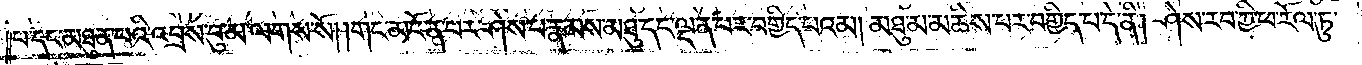པ་དང་མཐུན་པའི་འབྲས་བུ་མ་ལགས་སོ། །གང་མངོན་པར་ཤེས་པ་རྣམས་མཐུ་དང་ལྡན་པར་བགྱིད་པའམ། མཐུ་མ་མཆིས་པར་བགྱིད་པ་དེ་ནི། ཤེས་རབ་ཀྱི་ཕ་རོལ་ཏུ་
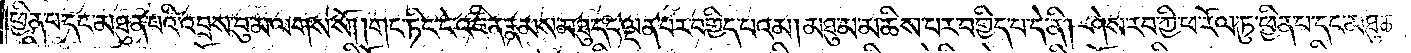ཕྱིན་པ་དང་མཐུན་པའི་འབྲས་བུ་མ་ལགས་སོ། །གང་ཏིང་ངེ་འཛིན་རྣམས་མཐུ་དང་ལྡན་པར་བགྱིད་པའམ། མཐུ་མ་མཆིས་པར་བགྱིད་པ་དེ་ནི། ཤེས་རབ་ཀྱི་ཕ་རོལ་ཏུ་ཕྱིན་པ་དང་མཐུན་
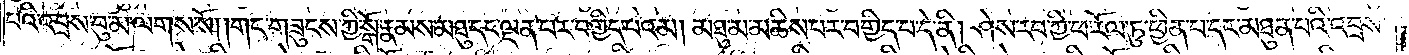པའི་འབྲས་བུ་མ་ལགས་སོ། །གང་གཟུངས་ཀྱི་སྒོ་རྣམས་མཐུ་དང་ལྡན་པར་བགྱིད་པའམ། མཐུ་མ་མཆིས་པར་བགྱིད་པ་དེ་ནི། ཤེས་རབ་ཀྱི་ཕ་རོལ་ཏུ་ཕྱིན་པ་དང་མཐུན་པའི་འབྲས་
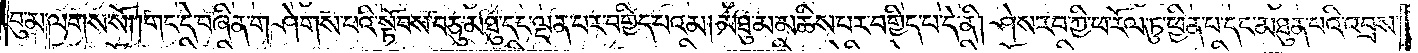བུ་མ་ལགས་སོ། །གང་དེ་བཞིན་གཤེགས་པའི་སྟོབས་བཅུ་མཐུ་དང་ལྡན་པར་བགྱིད་པའམ། མཐུ་མ་མཆིས་པར་བགྱིད་པ་དེ་ནི། ཤེས་རབ་ཀྱི་ཕ་རོལ་ཏུ་ཕྱིན་པ་དང་མཐུན་པའི་འབྲས་
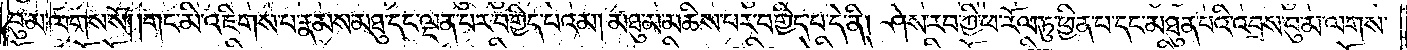བུ་མ་ལགས་སོ། །གང་མི་འཇིགས་པ་རྣམས་མཐུ་དང་ལྡན་པར་བགྱིད་པའམ། མཐུ་མ་མཆིས་པར་བགྱིད་པ་དེ་ནི། ཤེས་རབ་ཀྱི་ཕ་རོལ་ཏུ་ཕྱིན་པ་དང་མཐུན་པའི་འབྲས་བུ་མ་ལགས་
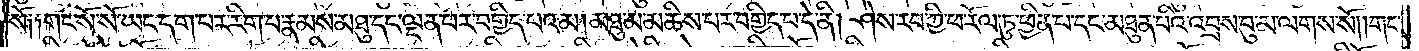སོ༑ ༑གང་སོ་སོ་ཡང་དག་པར་རིག་པ་རྣམས་མཐུ་དང་ལྡན་པར་བགྱིད་པའམ། མཐུ་མ་མཆིས་པར་བགྱིད་པ་དེ་ནི། ཤེས་རབ་ཀྱི་ཕ་རོལ་ཏུ་ཕྱིན་པ་དང་མཐུན་པའི་འབྲས་བུ་མ་ལགས་སོ། །གང་
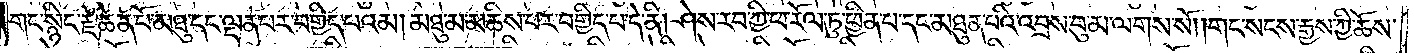གང་སྙིང་རྗེ་ཆེན་པོ་མཐུ་དང་ལྡན་པར་བགྱིད་པའམ། མཐུ་མ་མཆིས་པར་བགྱིད་པ་དེ་ནི། ཤེས་རབ་ཀྱི་ཕ་རོལ་ཏུ་ཕྱིན་པ་དང་མཐུན་པའི་འབྲས་བུ་མ་ལགས་སོ། །གང་སངས་རྒྱས་ཀྱི་ཆོས་
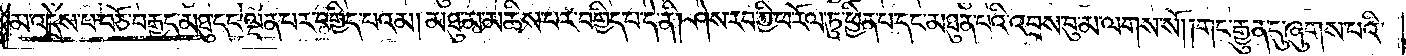མ་འདྲེས་པ་བཅོ་བརྒྱད་མཐུ་དང་ལྡན་པར་བགྱིད་པའམ། མཐུ་མ་མཆིས་པར་བགྱིད་པ་དེ་ནི། ཤེས་རབ་ཀྱི་ཕ་རོལ་ཏུ་ཕྱིན་པ་དང་མཐུན་པའི་འབྲས་བུ་མ་ལགས་སོ། །གང་རྒྱུན་དུ་ཞུགས་པའི་
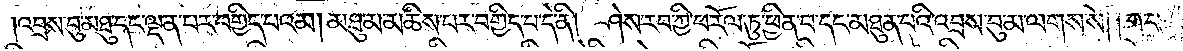འབྲས་བུ་མཐུ་དང་ལྡན་པར་བགྱིད་པའམ། མཐུ་མ་མཆིས་པར་བགྱིད་པ་དེ་ནི། ཤེས་རབ་ཀྱི་ཕ་རོལ་ཏུ་ཕྱིན་པ་དང་མཐུན་པའི་འབྲས་བུ་མ་ལགས་སོ། །གང་
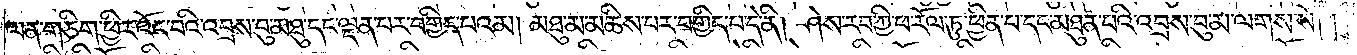ལན་གཅིག་ཕྱིར་འོང་བའི་འབྲས་བུ་མཐུ་དང་ལྡན་པར་བགྱིད་པའམ། མཐུ་མ་མཆིས་པར་བགྱིད་པ་དེ་ནི། ཤེས་རབ་ཀྱི་ཕ་རོལ་ཏུ་ཕྱིན་པ་དང་མཐུན་པའི་འབྲས་བུ་མ་ལགས་སོ། །
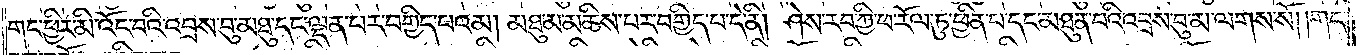གང་ཕྱིར་མི་འོང་བའི་འབྲས་བུ་མཐུ་དང་ལྡན་པར་བགྱིད་པའམ། མཐུ་མ་མཆིས་པར་བགྱིད་པ་དེ་ནི། ཤེས་རབ་ཀྱི་ཕ་རོལ་ཏུ་ཕྱིན་པ་དང་མཐུན་པའི་འབྲས་བུ་མ་ལགས་སོ། །གང་
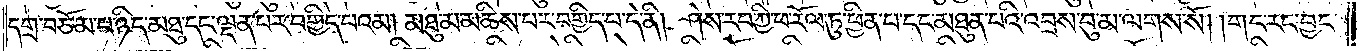དགྲ་བཅོམ་པ་ཉིད་མཐུ་དང་ལྡན་པར་བགྱིད་པའམ། མཐུ་མ་མཆིས་པར་བགྱིད་པ་དེ་ནི། ཤེས་རབ་ཀྱི་ཕ་རོལ་ཏུ་ཕྱིན་པ་དང་མཐུན་པའི་འབྲས་བུ་མ་ལགས་སོ། །གང་རང་བྱང་
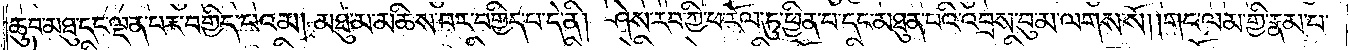ཆུབ་མཐུ་དང་ལྡན་པར་བགྱིད་པའམ། མཐུ་མ་མཆིས་པར་བགྱིད་པ་དེ་ནི། ཤེས་རབ་ཀྱི་ཕ་རོལ་ཏུ་ཕྱིན་པ་དང་མཐུན་པའི་འབྲས་བུ་མ་ལགས་སོ། །གང་ལམ་གྱི་རྣམ་པ་
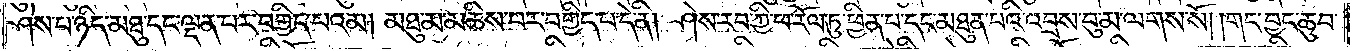ཤེས་པ་ཉིད་མཐུ་དང་ལྡན་པར་བགྱིད་པའམ། མཐུ་མ་མཆིས་པར་བགྱིད་པ་དེ་ནི། ཤེས་རབ་ཀྱི་ཕ་རོལ་ཏུ་ཕྱིན་པ་དང་མཐུན་པའི་འབྲས་བུ་མ་ལགས་སོ། །གང་བྱང་ཆུབ་
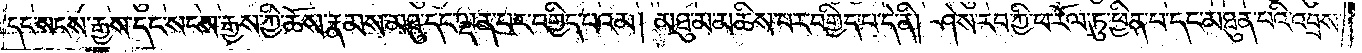དང་སངས་རྒྱས་དང་སངས་རྒྱས་ཀྱི་ཆོས་རྣམས་མཐུ་དང་ལྡན་པར་བགྱིད་པའམ། མཐུ་མ་མཆིས་པར་བགྱིད་པ་དེ་ནི། ཤེས་རབ་ཀྱི་ཕ་རོལ་ཏུ་ཕྱིན་པ་དང་མཐུན་པའི་འབྲས་
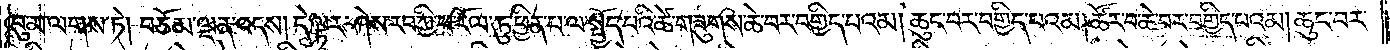བུ་མ་ལགས་ཏེ། བཅོམ་ལྡན་འདས། དེ་ལྟར་ཤེས་རབ་ཀྱི་ཕ་རོལ་ཏུ་ཕྱིན་པ་ལ་སྤྱོད་པའི་ཚེ་གཟུགས་ཆེ་བར་བགྱིད་པའམ། ཆུང་བར་བགྱིད་པའམ། ཚོར་བ་ཆེ་བར་བགྱིད་པའམ། ཆུང་བར་
